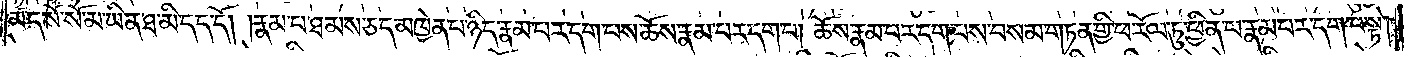མེད་སོ་སོ་མ་ཡིན་ཐ་མི་དད་དོ། །རྣམ་པ་ཐམས་ཅད་མཁྱེན་པ་ཉིད་རྣམ་པར་དག་པས་ཆོས་རྣམ་པར་དག་པ། ཆོས་རྣམ་པར་དག་པས་བསམ་གཏན་གྱི་ཕ་རོལ་ཏུ་ཕྱིན་པ་རྣམ་པར་དག་པ་སྟེ།
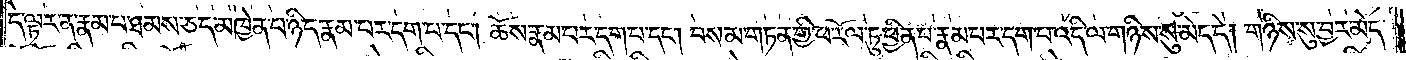དེ་ལྟར་ན་རྣམ་པ་ཐམས་ཅད་མཁྱེན་པ་ཉིད་རྣམ་པར་དག་པ་དང༌། ཆོས་རྣམ་པར་དག་པ་དང༌། བསམ་གཏན་གྱི་ཕ་རོལ་ཏུ་ཕྱིན་པ་རྣམ་པར་དག་པ་འདི་ལ་གཉིས་སུ་མེད་དེ། གཉིས་སུ་བྱར་མེད་
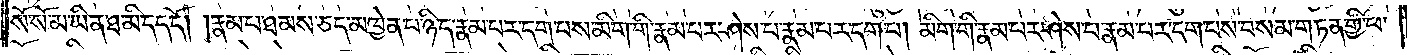སོ་སོ་མ་ཡིན་ཐ་མི་དད་དོ། །རྣམ་པ་ཐམས་ཅད་མཁྱེན་པ་ཉིད་རྣམ་པར་དག་པས་མིག་གི་རྣམ་པར་ཤེས་པ་རྣམ་པར་དག་པ། མིག་གི་རྣམ་པར་ཤེས་པ་རྣམ་པར་དག་པས་བསམ་གཏན་གྱི་ཕ་
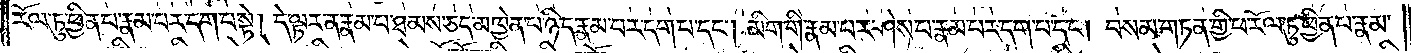རོལ་ཏུ་ཕྱིན་པ་རྣམ་པར་དག་པ་སྟེ། དེ་ལྟར་ན་རྣམ་པ་ཐམས་ཅད་མཁྱེན་པ་ཉིད་རྣམ་པར་དག་པ་དང༌། མིག་གི་རྣམ་པར་ཤེས་པ་རྣམ་པར་དག་པ་དང༌། བསམ་གཏན་གྱི་ཕ་རོལ་ཏུ་ཕྱིན་པ་རྣམ་
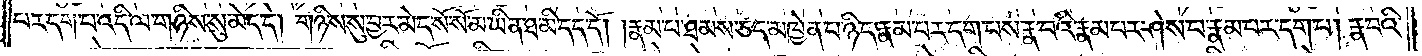པར་དག་པ་འདི་ལ་གཉིས་སུ་མེད་དེ། གཉིས་སུ་བྱར་མེད་སོ་སོ་མ་ཡིན་ཐ་མི་དད་དོ། །རྣམ་པ་ཐམས་ཅད་མཁྱེན་པ་ཉིད་རྣམ་པར་དག་པས་རྣ་བའི་རྣམ་པར་ཤེས་པ་རྣམ་པར་དག་པ། རྣ་བའི་
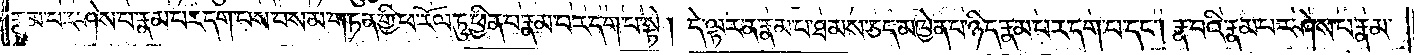རྣམ་པར་ཤེས་པ་རྣམ་པར་དག་པས་བསམ་གཏན་གྱི་ཕ་རོལ་ཏུ་ཕྱིན་པ་རྣམ་པར་དག་པ་སྟེ། དེ་ལྟར་ན་རྣམ་པ་ཐམས་ཅད་མཁྱེན་པ་ཉིད་རྣམ་པར་དག་པ་དང༌། རྣ་བའི་རྣམ་པར་ཤེས་པ་རྣམ་
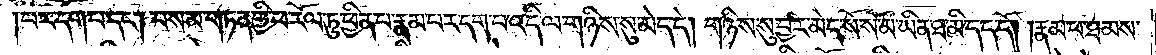པར་དག་པ་དང༌། བསམ་གཏན་གྱི་ཕ་རོལ་ཏུ་ཕྱིན་པ་རྣམ་པར་དག་པ་འདི་ལ་གཉིས་སུ་མེད་དེ། གཉིས་སུ་བྱར་མེད་སོ་སོ་མ་ཡིན་ཐ་མི་དད་དོ། །རྣམ་པ་ཐམས་
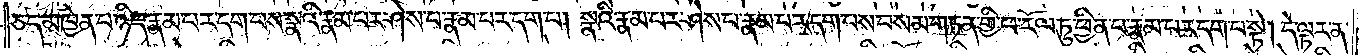ཅད་མཁྱེན་པ་ཉིད་རྣམ་པར་དག་པས་སྣའི་རྣམ་པར་ཤེས་པ་རྣམ་པར་དག་པ། སྣའི་རྣམ་པར་ཤེས་པ་རྣམ་པར་དག་པས་བསམ་གཏན་གྱི་ཕ་རོལ་ཏུ་ཕྱིན་པ་རྣམ་པར་དག་པ་སྟེ། དེ་ལྟར་ན་
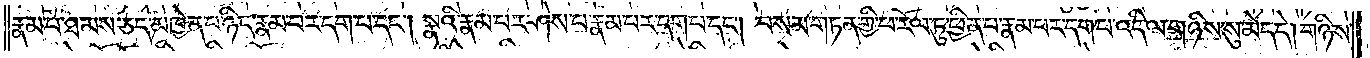རྣམ་པ་ཐམས་ཅད་མཁྱེན་པ་ཉིད་རྣམ་པར་དག་པ་དང༌། སྣའི་རྣམ་པར་ཤེས་པ་རྣམ་པར་དག་པ་དང༌། བསམ་གཏན་གྱི་ཕ་རོལ་ཏུ་ཕྱིན་པ་རྣམ་པར་དག་པ་འདི་ལ་གཉིས་སུ་མེད་དེ། གཉིས་
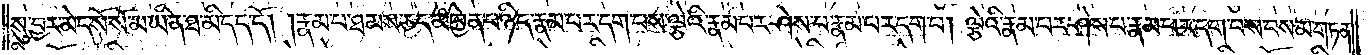སུ་བྱར་མེད་སོ་སོ་མ་ཡིན་ཐ་མི་དད་དོ། །རྣམ་པ་ཐམས་ཅད་མཁྱེན་པ་ཉིད་རྣམ་པར་དག་པས་ལྕེའི་རྣམ་པར་ཤེས་པ་རྣམ་པར་དག་པ། ལྕེའི་རྣམ་པར་ཤེས་པ་རྣམ་པར་དག་པས་བསམ་གཏན་
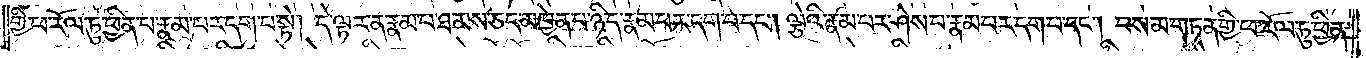གྱི་ཕ་རོལ་ཏུ་ཕྱིན་པ་རྣམ་པར་དག་པ་སྟེ། དེ་ལྟར་ན་རྣམ་པ་ཐམས་ཅད་མཁྱེན་པ་ཉིད་རྣམ་པར་དག་པ་དང༌། ལྕེའི་རྣམ་པར་ཤེས་པ་རྣམ་པར་དག་པ་དང༌། བསམ་གཏན་གྱི་ཕ་རོལ་ཏུ་ཕྱིན་
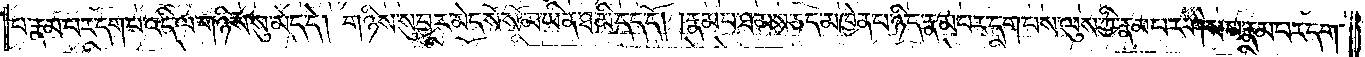པ་རྣམ་པར་དག་པ་འདི་ལ་གཉིས་སུ་མེད་དེ། གཉིས་སུ་བྱར་མེད་སོ་སོ་མ་ཡིན་ཐ་མི་དད་དོ། །རྣམ་པ་ཐམས་ཅད་མཁྱེན་པ་ཉིད་རྣམ་པར་དག་པས་ལུས་ཀྱི་རྣམ་པར་ཤེས་པ་རྣམ་པར་དག་
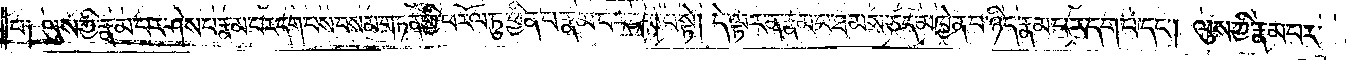པ༑ ལུས་ཀྱི་རྣམ་པར་ཤེས་པ་རྣམ་པར་དག་པས་བསམ་གཏན་གྱི་ཕ་རོལ་ཏུ་ཕྱིན་པ་རྣམ་པར་དག་པ་སྟེ། དེ་ལྟར་ན་རྣམ་པ་ཐམས་ཅད་མཁྱེན་པ་ཉིད་རྣམ་པར་དག་པ་དང༌། ལུས་ཀྱི་རྣམ་པར་
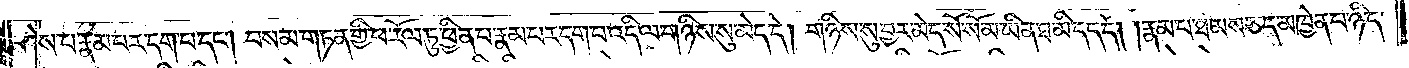ཤེས་པ་རྣམ་པར་དག་པ་དང༌། བསམ་གཏན་གྱི་ཕ་རོལ་ཏུ་ཕྱིན་པ་རྣམ་པར་དག་པ་འདི་ལ་གཉིས་སུ་མེད་དེ། གཉིས་སུ་བྱར་མེད་སོ་སོ་མ་ཡིན་ཐ་མི་དད་དོ། །རྣམ་པ་ཐམས་ཅད་མཁྱེན་པ་ཉིད་
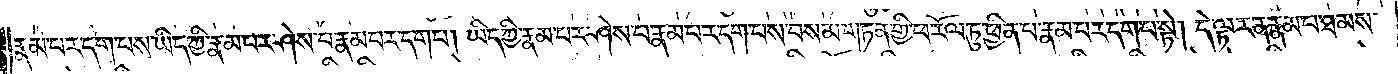རྣམ་པར་དག་པས་ཡིད་ཀྱི་རྣམ་པར་ཤེས་པ་རྣམ་པར་དག་པ། ཡིད་ཀྱི་རྣམ་པར་ཤེས་པ་རྣམ་པར་དག་པས་བསམ་གཏན་གྱི་ཕ་རོལ་ཏུ་ཕྱིན་པ་རྣམ་པར་དག་པ་སྟེ། དེ་ལྟར་ན་རྣམ་པ་ཐམས་
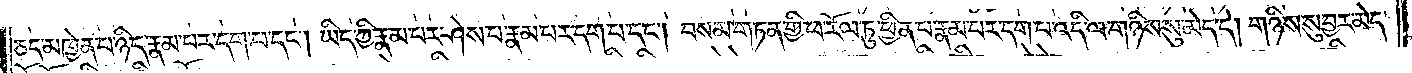ཅད་མཁྱེན་པ་ཉིད་རྣམ་པར་དག་པ་དང༌། ཡིད་ཀྱི་རྣམ་པར་ཤེས་པ་རྣམ་པར་དག་པ་དང༌། བསམ་གཏན་གྱི་ཕ་རོལ་ཏུ་ཕྱིན་པ་རྣམ་པར་དག་པ་འདི་ལ་གཉིས་སུ་མེད་དེ། གཉིས་སུ་བྱར་མེད་
